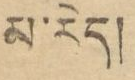མ་རེད།
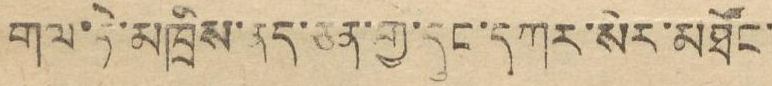གལ་ཏེ་མཁྲིས་ནད་ཅན་གྱི་དུང་དཀར་སེར་མཐོང་
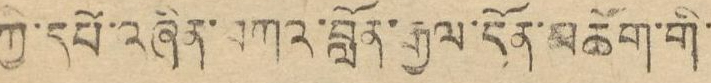ཀྱི་དཔོ་འཞིན་བཀའ་བློན་རྒྱལ་དོན་མཆོག་གི་
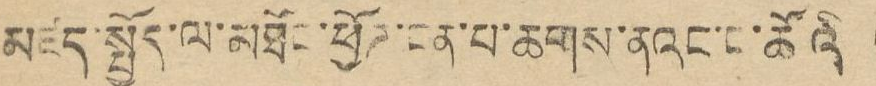མཛད་སྤྱོད་ལ་མཐོང་ཕྱོཊ་ངན་པ་ཆགས་ནའང་ང་ཚོའི
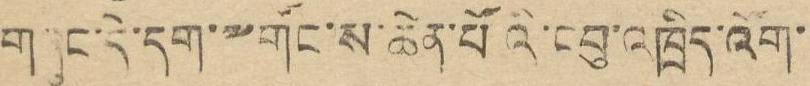གཞུང་དེ་དག་༸གོང་ས་ཆེན་པའི་དབུ་འཁྲིད་འོག་
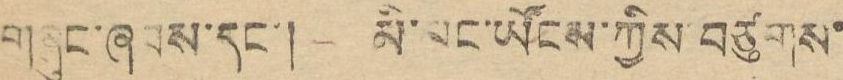གཞུང་ཞབས་དང་། མི་མང་ཡོངས་ཀྱིས་བཙུགས་
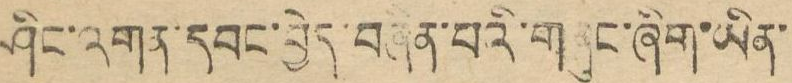ཤིང་འགན་དབང་བྱེད་བཞིན་པའི་གཞུང་ཞིག་ཡིན་
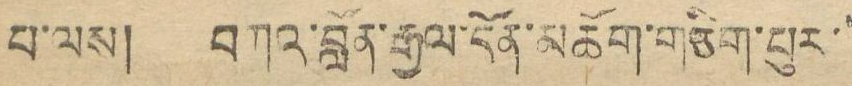པ་ལས། བཀའ་བློན་རྒྱལ་དོན་མཆོག་གཅིག་པུར་
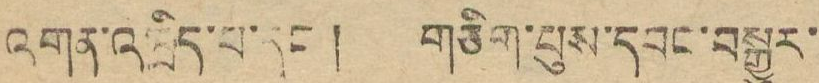འགན་འཁྲིད་པ་དང་། གཅིག་པུས་དབང་བསྒྱུར་
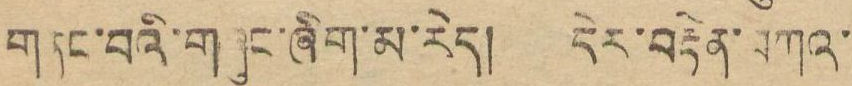གནང་བའི་གཞུང་ཞིག་མ་རེད། དེར་བརྟེན་བཀའ་
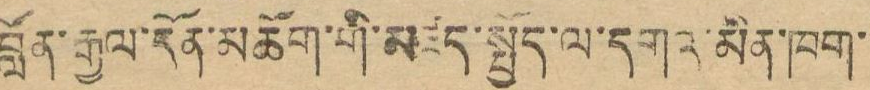བློན་རྒྱལ་དོན་མཆོག་གི་མཛད་སྤྱོད་ལ་དགའ་མིན་ཁག་
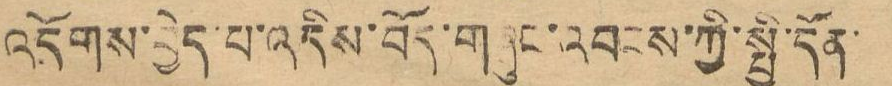འདོགས་བྱེད་པ་འདིས་བོད་གཞུང་འབངས་ཀྱི་སྤྱི་དོན་
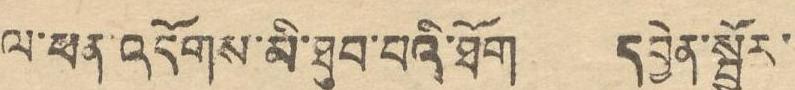ལ་ཕན་འདོགས་མི་ཐུབ་པའི་ཐོག དབྱིན་སྦྱོར་
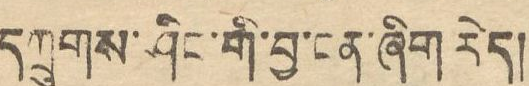དཀྲུངས་ཤིང་གི་བྱ་ངན་ཞིག རེད།
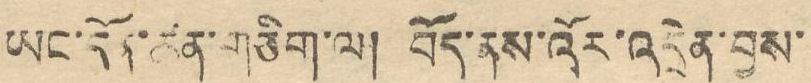ཡང་དོན་ཚན་གཅིག་ལ། བོད་ནས་འོར་འདྲེན་བྱས་
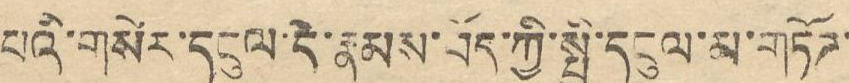པའི་གསེར་དངུལ་དེ་རྣམས་བོད་ཀྱི་སྤྱི་དངུལ་མ་གཏོཊ་
